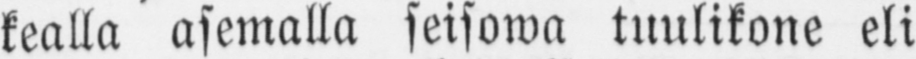kealla asemalla seisowa tuulikone eli
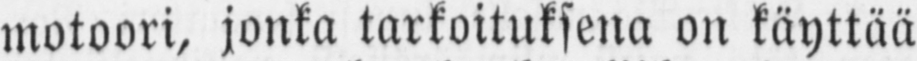motoori, jonka tarkoituksena on käyttää
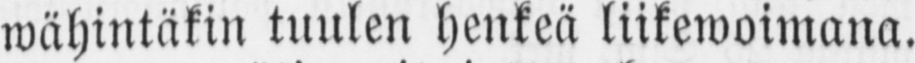wähintäkin tuulen henkeä liikewoimana.
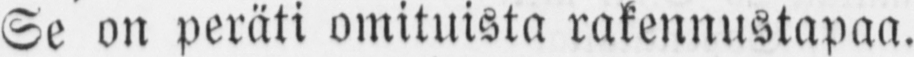Se on peräti omituista rakennustapaa.
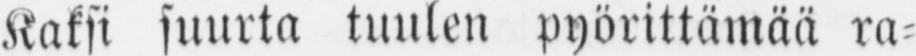Kaksi suurta tuulen pyörittämää ra-
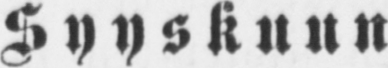S yyskunn
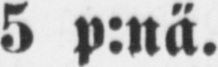5 p:nä.
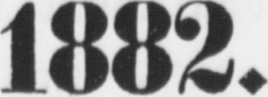1882.
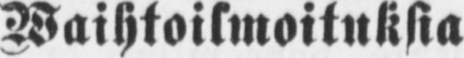Waihtoilmoituksia
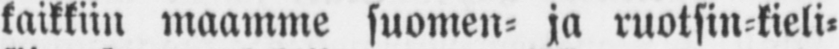kaikkiin maamme suomen- ja ruotsin kieli-
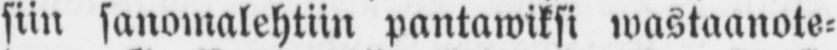siin sanomalehtiin pantawiksi wastaanote-
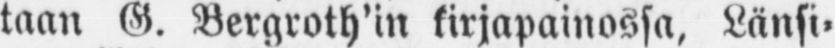taan G. Bergroth'in kirjapainossa, Länsi-
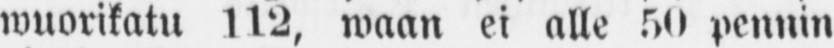wuorikatu 112, waan ei alle 50 pennin
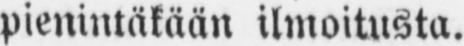pienintäkään ilmoitusta.
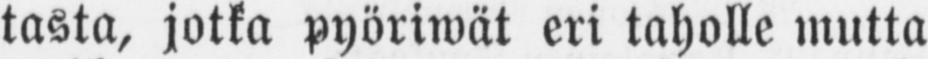tasta, jotka pyöriwät eri taholle mutta
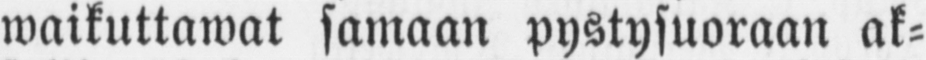waikuttawat samaan pystysuoraan ak-
